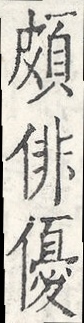頗俳優
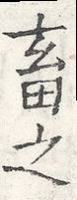畜之
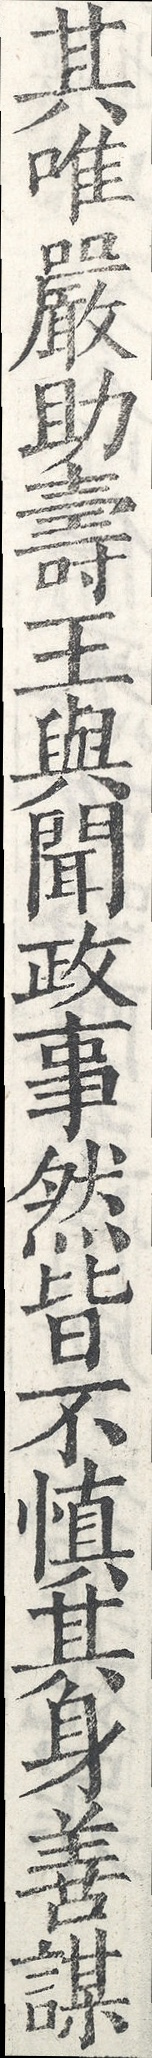其唯嚴助壽王與聞政事然皆不慎其身善謀
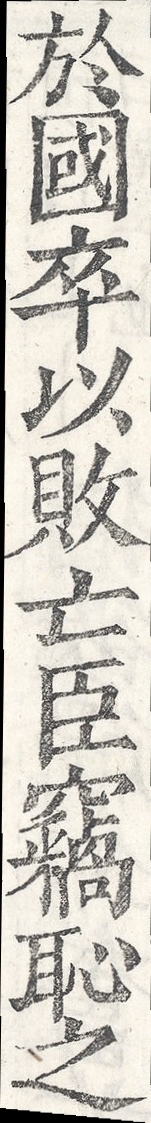於國卒以敗亡臣竊恥之
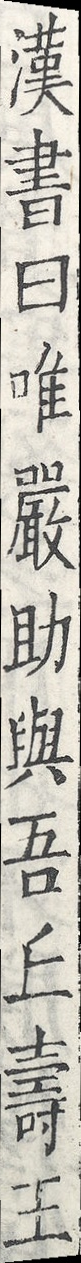漢書曰唯嚴助與吾丘壽王
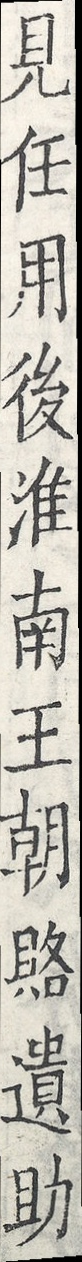見任用後淮南王朝賂遺助
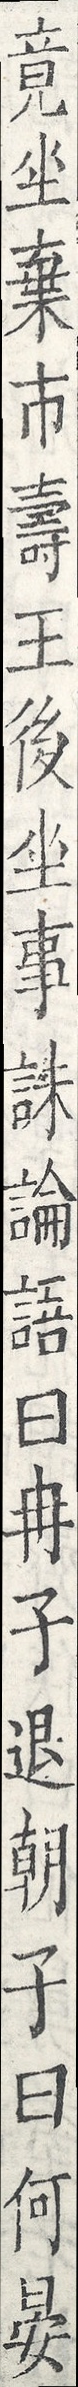竟坐棄市壽王後坐事誅論語曰冉子退朝子曰何晏
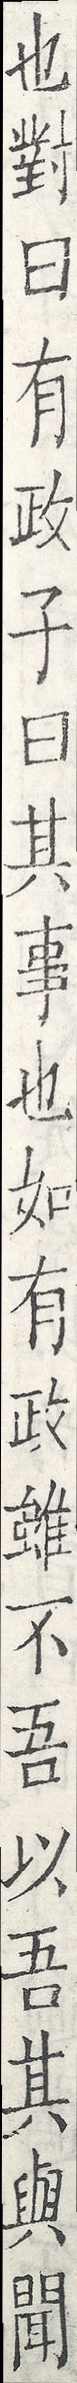也對曰有政子曰其事也如有政雖不吾以吾其與聞
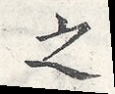之
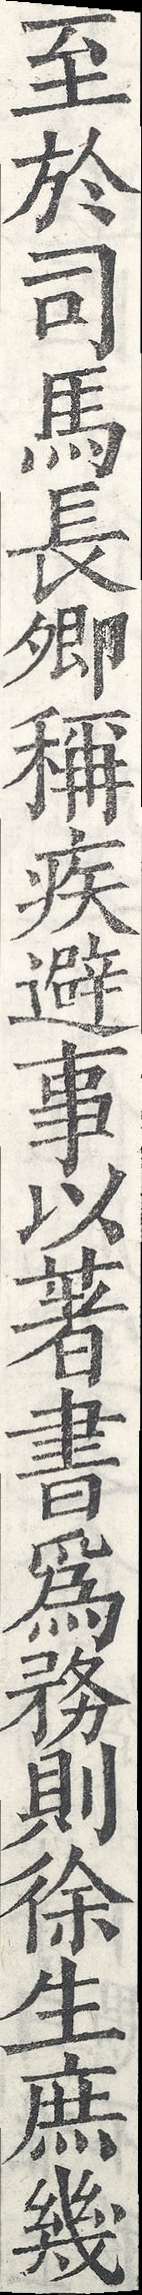至於司馬長卿稱疾避事以著書為務則徐生庶幾
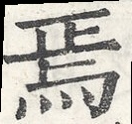焉
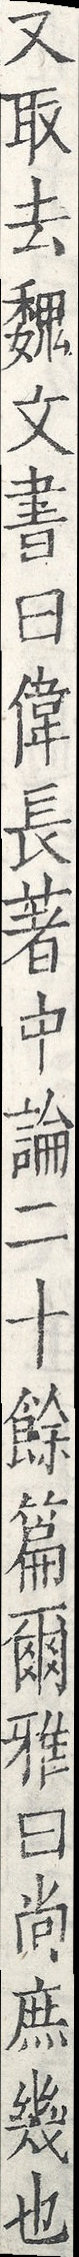又取去魏文書曰偉長著中論二十餘篇爾雅曰尚庶幾也
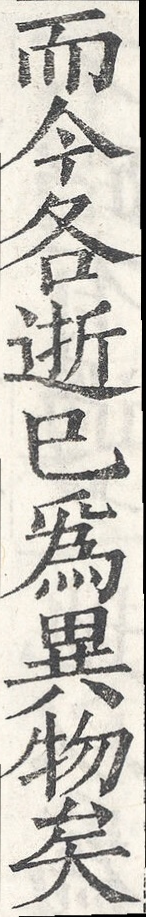而今各逝已為異物矣
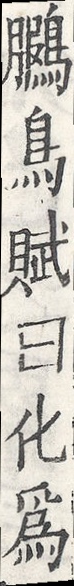鵩鳥賦曰化為
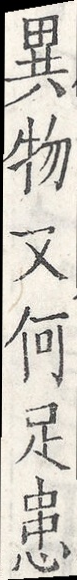異物又何足患
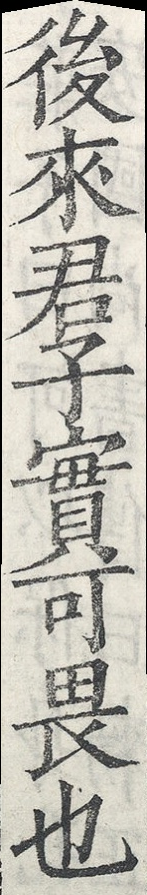後來君子實可畏也
